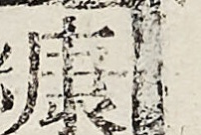糠
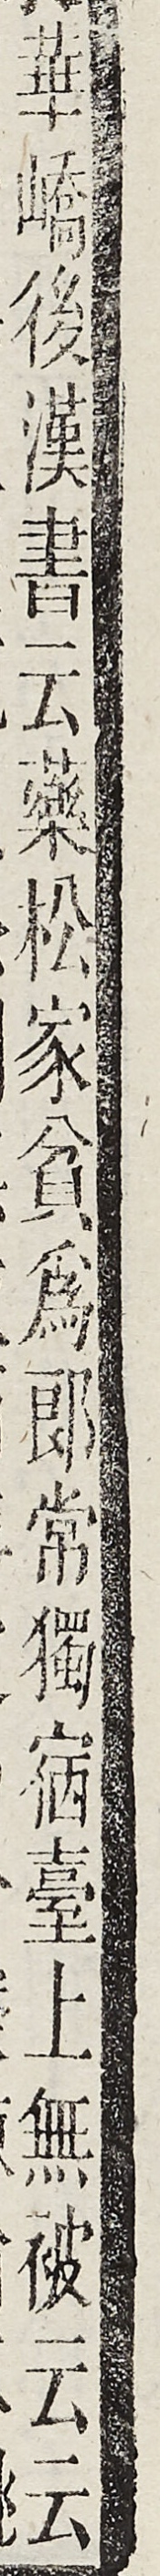華嶠後漢書云藥松家貧為郎常獨宿台上無被云云
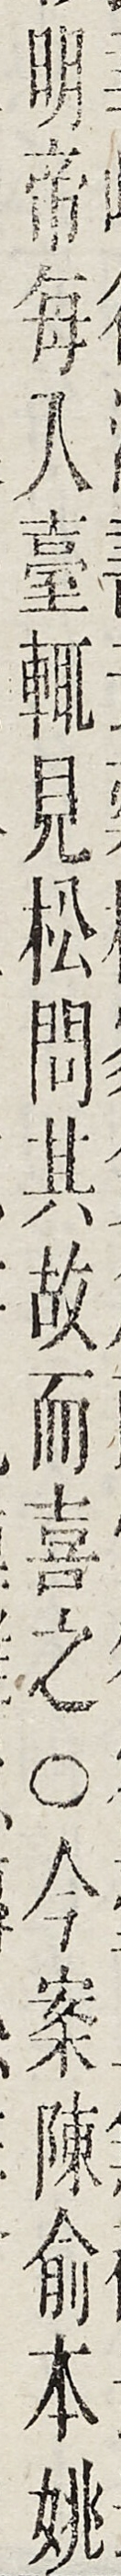明帝每入台輒見松問其故而喜之○今案陳俞本姚
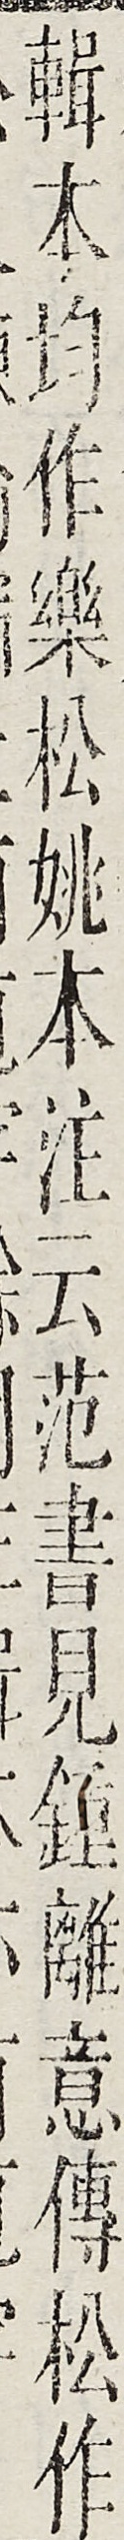輯本均作樂松姚本注云範書見鍾離意傳松作
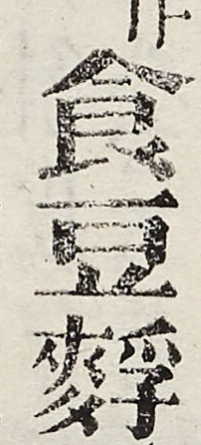食豆䴸
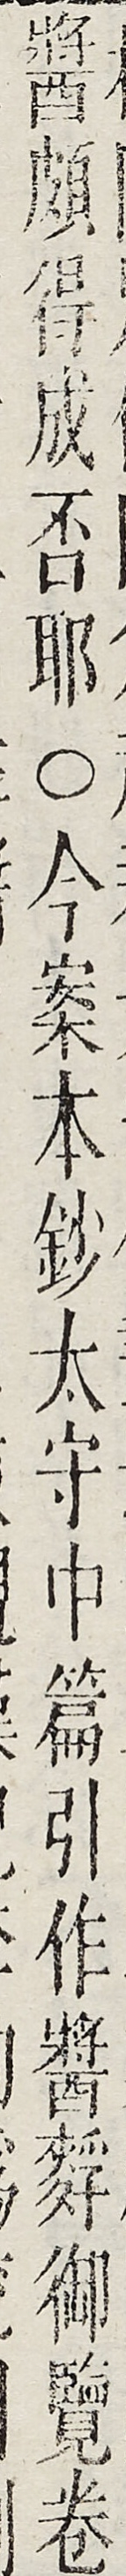醬頗得成否耶○今案本鈔太守中篇引作醬䴸御覽卷
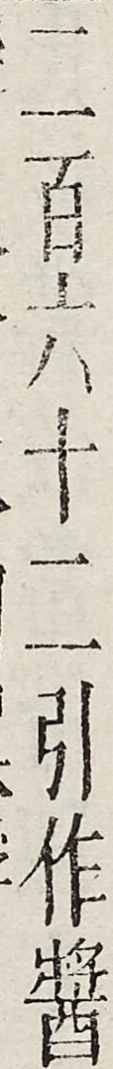二百六十二引作醬
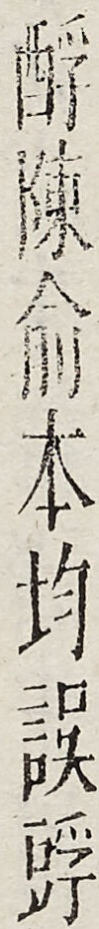酻陳俞本均誤〈豆孚〉
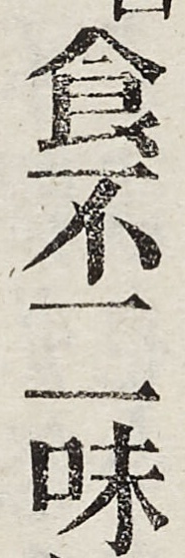食不二味
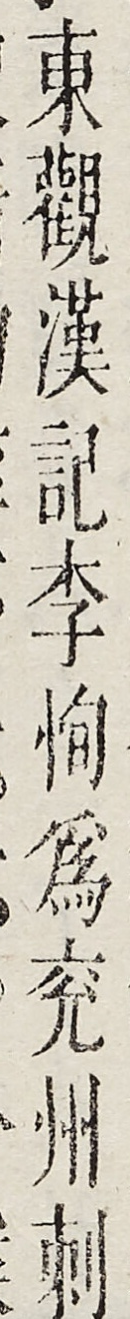東觀漢記李洵為兗州刺
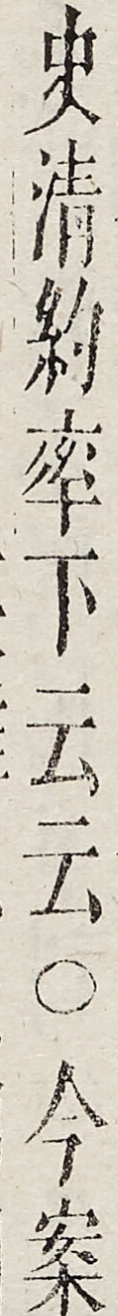史清約率下云云○今案
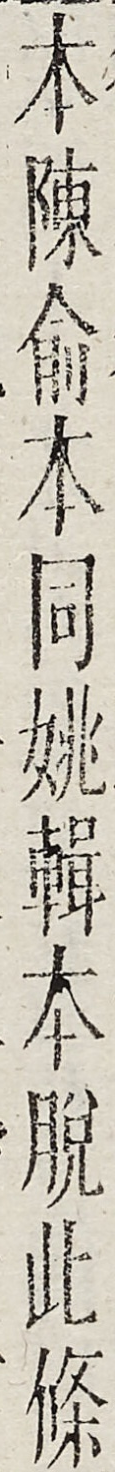本陳俞本同姚輯本脫此條
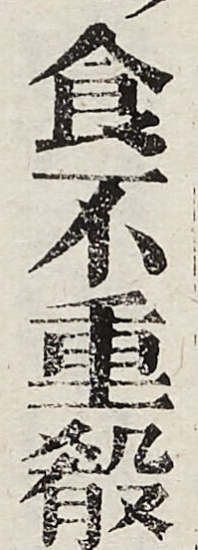食不重淆
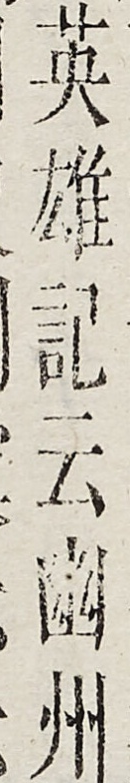英雄記云幽州
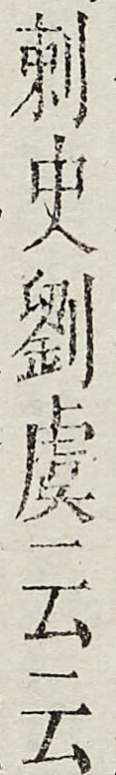刺史劉虞云云
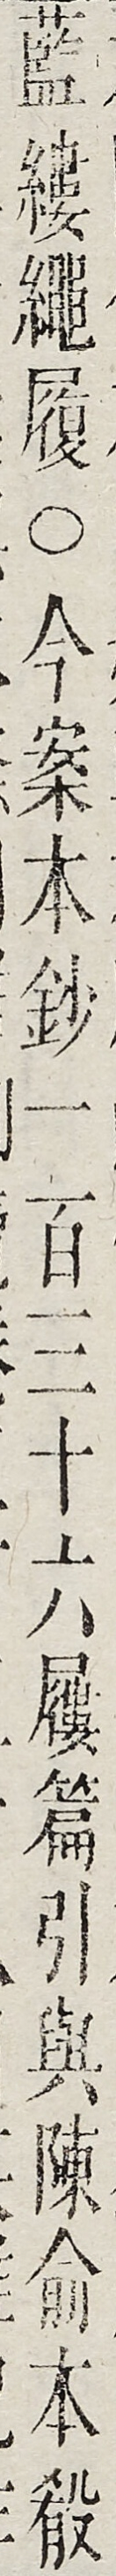藍縷繩履○今案本鈔一百三十六屨篇引與陳俞本殽
